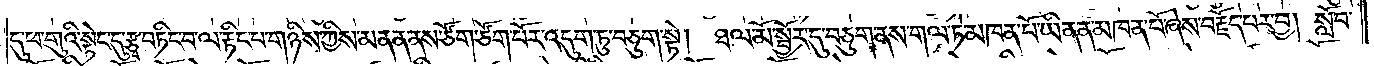དུ་ཕ་གུའི་སྟེང་དུ་རྩྭ་བཏིང་བ་ལ་རྟིང་པ་གཉིས་ཀྱིས་མནན་ནས་ཙོག་ཙོག་པོར་འདུག་ཏུ་བཅུག་སྟེ། ཐལ་མོ་སྦྱོར་དུ་བཅུག་ནས་གལ་ཏེ་མཁན་པོ་ཡིན་ན་མཁན་པོ་ཞེས་བརྗོད་པར་བྱ། སློབ་
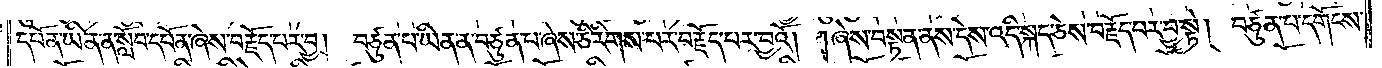དཔོན་ཡིན་ན་སློབ་དཔོན་ཞེས་བརྗེད་པར་བྱ། བཙུན་པ་ཡིན་ན་བཙུན་པ་ཞེས་ཅི་རིགས་པར་བརྗོད་པར་བྱའོ། །ཞེས་བསྟན་ནས་དེས་འདི་སྐད་ཅེས་བརྗོད་པར་བྱ་སྟེ། བཙུན་པ་དགོངས་
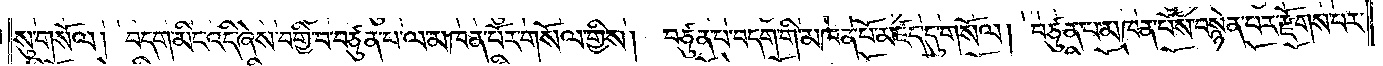སུ་གསོལ། བདག་མིང་འདི་ཞེས་བགྱི་བ་བཙུན་པ་ལ་མཁན་པོར་གསོལ་གྱིས། བཙུན་པ་བདག་གི་མཁན་པོ་མཛད་དུ་གསོལ། བཙུན་པ་མཁན་པོས་བསྙེན་པར་རྫོགས་པར་
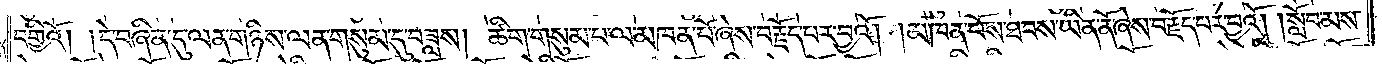བགྱིའོ། །དེ་བཞིན་དུ་ལན་གཉིས་ལན་གསུམ་དུ་བཟླས། ཚིག་གསུམ་པ་ལ་མཁན་པོ་ཞེས་བརྗོད་པར་བྱའོ། །མཁན་པོས་ཐབས་ཡིན་ནོ་ཞེས་བརྗོད་པར་བྱའོ། །སློབ་མས་
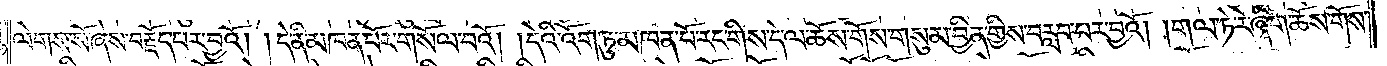ལེགས་སོ་ཞེས་བརྗོད་པར་བྱའོ། །དེ་ནི་མཁན་པོར་གསོལ་བའོ། །དེའི་འོག་ཏུ་མཁན་པོ་རང་གིས་དེ་ལ་ཆོས་གོས་གསུམ་བྱིན་གྱིས་བརླབ་པར་བྱའོ། །གལ་ཏེ་རེ་ཞིག་ཆོས་གོས་
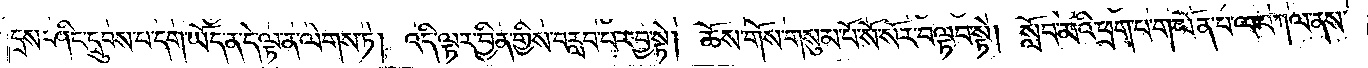དྲས་ཤིང་དྲུབས་པ་དག་ཡོད་ན་དེ་ལྟ་ན་ལེགས་ཏེ། འདི་ལྟར་བྱིན་གྱིས་བརླབ་པར་བྱ་སྟེ། ཆོས་གོས་གསུམ་པོ་སོ་སོར་བལྟབ་སྟེ། སློབ་མའི་ཕྲག་པ་གཡོན་པ་ལ་བཀལ་ནས་
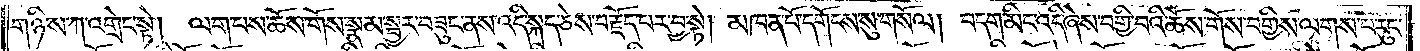གཉིས་ཀ་འགྲེང་སྟེ། ལག་པས་ཆོས་གོས་སྣམ་སྦྱར་བཟུང་ནས་འདི་སྐད་ཅེས་བརྗོད་པར་བྱ་སྟེ། མཁན་པོ་དགོངས་སུ་གསོལ། བདག་མིང་འདི་ཞེས་བགྱི་བའི་ཆོས་གོས་བགྱིས་ལགས་པ་རུང་
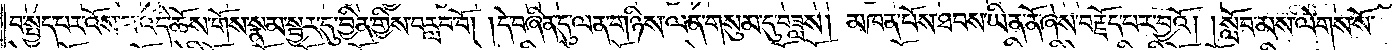བ་སྤྱད་པར་འོས་པ་འདི་ཆོས་གོས་སྣམ་སྦྱར་དུ་བྱིན་གྱིས་བརླབ་བོ། །དེ་བཞིན་དུ་ལན་གཉིས་ལན་གསུམ་དུ་བཟླས། མཁན་པོས་ཐབས་ཡིན་ནོ་ཞེས་བརྗོད་པར་བྱའོ། །སློབ་མས་ལེགས་སོ་
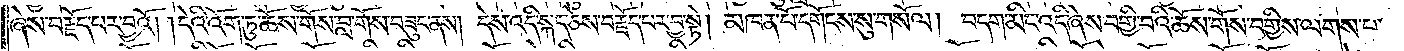ཞེས་བརྗོད་པར་བྱའོ། །དེའི་འོག་ཏུ་ཆོས་གོས་བླ་གོས་བཟུང་ནས། དེས་འདི་སྐད་ཅེས་བརྗོད་པར་བྱ་སྟེ། མཁན་པོ་དགོངས་སུ་གསོལ། བདག་མིང་འདི་ཞེས་བགྱི་བའི་ཆོས་གོས་བགྱིས་ལགས་པ་
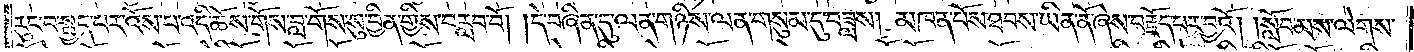རུང་བ་སྤྱད་པར་འོས་པ་འདི་ཆོས་གོས་བླ་གོས་སུ་བྱིན་གྱིས་བརླབ་བོ། །དེ་བཞིན་དུ་ལན་གཉིས་ལན་གསུམ་དུ་བཟླས། མཁན་པོས་ཐབས་ཡིན་ནོ་ཞེས་བརྗོད་པར་བྱའོ། །སློབ་མས་ལེགས་
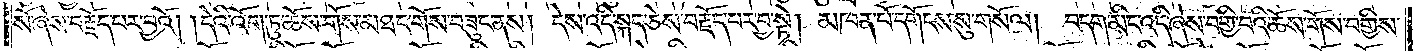སོ་ཞེས་བརྗོད་པར་བྱའོ། །དེའི་འོག་ཏུ་ཆོས་གོས་མཐང་གོས་བཟུང་ནས། དེས་འདི་སྐད་ཅེས་བརྗོད་པར་བྱ་སྟེ། མཁན་པོ་དགོངས་སུ་གསོལ། བདག་མིང་འདི་ཞེས་བགྱི་བའི་ཆོས་གོས་བགྱིས་
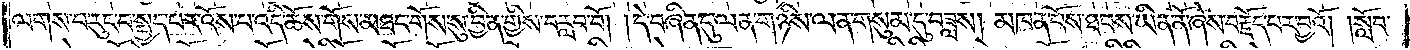ལགས་པ་རུང་བ་སྤྱད་པར་འོས་པ་འདི་ཆོས་གོས་མཐང་གོས་སུ་བྱིན་གྱིས་བརླབ་བོ། །དེ་བཞིན་དུ་ལན་གཉིས་ལན་གསུམ་དུ་བཟླས། མཁན་པོས་ཐབས་ཡིན་ནོ་ཞེས་བརྗོད་པར་བྱའོ། །སློབ་
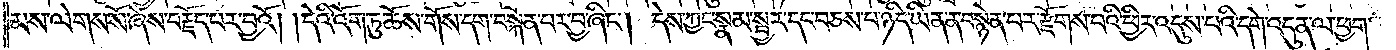མས་ལེགས་སོ་ཞེས་བརྗོད་པར་བྱའོ། །དེའི་འོག་ཏུ་ཆོས་གོས་དག་བསྐོན་པར་བྱ་ཞིང༌། དེས་ཀྱང་སྣམ་སྦྱར་དང་བཅས་པ་ཉིད་ཡིན་ན་བསྙེན་པར་རྫོགས་པའི་ཕྱིར་འདུས་པའི་དགེ་འདུན་ལ་ཕྱག་
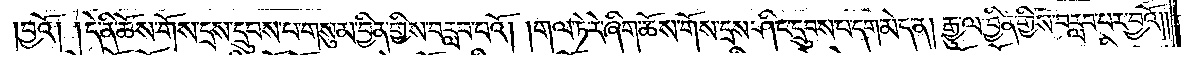།བྱའོ། །དེ་ནི་ཆོས་གོས་དྲས་དྲུབས་པ་གསུམ་བྱིན་གྱིས་བརླབ་པའོ། །གལ་ཏེ་རེ་ཞིག་ཆོས་གོས་དྲས་ཤིང་དྲུབས་པ་དག་མེད་ན། རྒྱལ་བྱིན་གྱིས་བརླབ་པར་བྱའོ༎
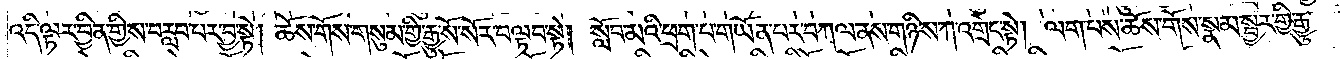འདི་ལྟར་བྱིན་གྱིས་བརླབ་པར་བྱ་སྟེ། ཆོས་གོས་གསུམ་གྱི་རྒྱུ་སོ་སོར་བལྟབ་སྟེ། སློབ་མའི་ཕྲག་པ་གཡོན་པར་བཀལ་ནས་གཉིས་ཀ་འགྲེང་སྟེ། ལག་པས་ཆོས་གོས་སྣམ་སྦྱར་གྱི་རྒྱུ་
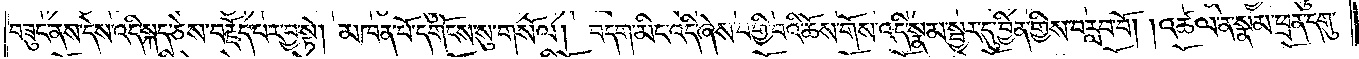བཟུང་ནས་དེས་འདི་སྐད་ཅེས་བརྗོད་པར་བྱ་སྟེ། མཁན་པོ་དགོངས་སུ་གསོལ། བདག་མིང་འདི་ཞེས་བགྱི་བའི་ཆོས་གོས་འདི་སྣམ་སྦྱར་དུ་བྱིན་གྱིས་བརླབ་བོ། །འཚལ་ན་སྣམ་ཕྲན་དགུ་
